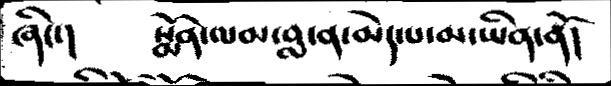ཞིང་།    སྨོན་ལམ་བླ་ན་མེད་པ་མ་ཡིན་ནོ།
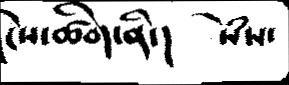ངེས་ཚིག་ནི་།  སེཾས་
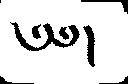༄༅།
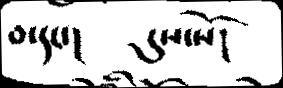བ་དང་།    དུས་སོ།
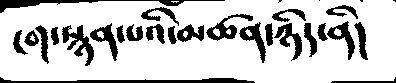ངག་སྙན་པའི་མཚན་ཉིད་ནི།
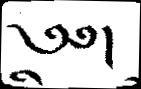༄༅།
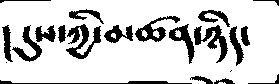།དུས་ཀྱི་མཚན་ཉིད་
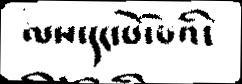ལས་དང་པོ་པའི་
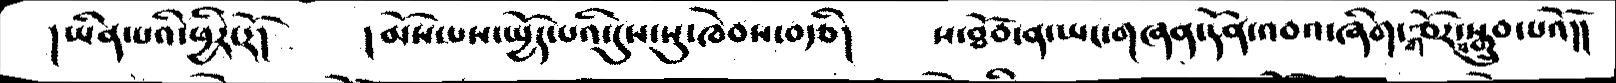།ཡིན་པའི་ཕྱིར་རོ།   །མོས་པས་སྤྱོད་པའི་དུས་སུ་ཁེབས་བརྩི།    ས་ཐོབ་ན་ཡང་གཞན་དོན་འབའ་ཞིག་གཙོར་བསྒྲུབ་པའོ།།
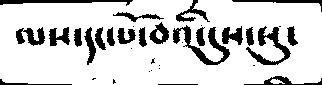ལས་དང་པོ་བའི་དུས་སུ་
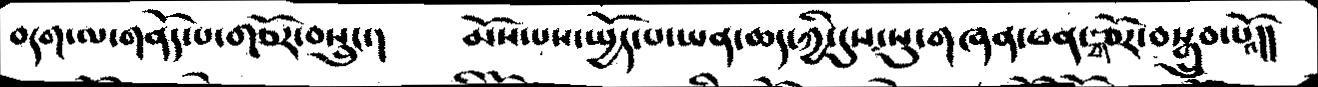བདག་ལ་གནོད་པ་གཙོར་བསྲུང་།    མོས་པས་སྤྱོད་པ་ཡན་ཆད་ཀྱི་དུས་སུ་གཞན་ཕན་གཙོར་བསྒྲུབ་པའོ།།
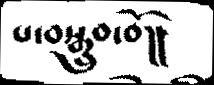པ་བསྒྲུབ་བོ།།
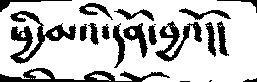ཕྱི་མའི་དོན་བྱའོ།།
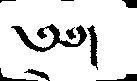༄༅།
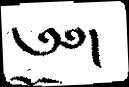༄༅།
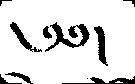༄༅།
